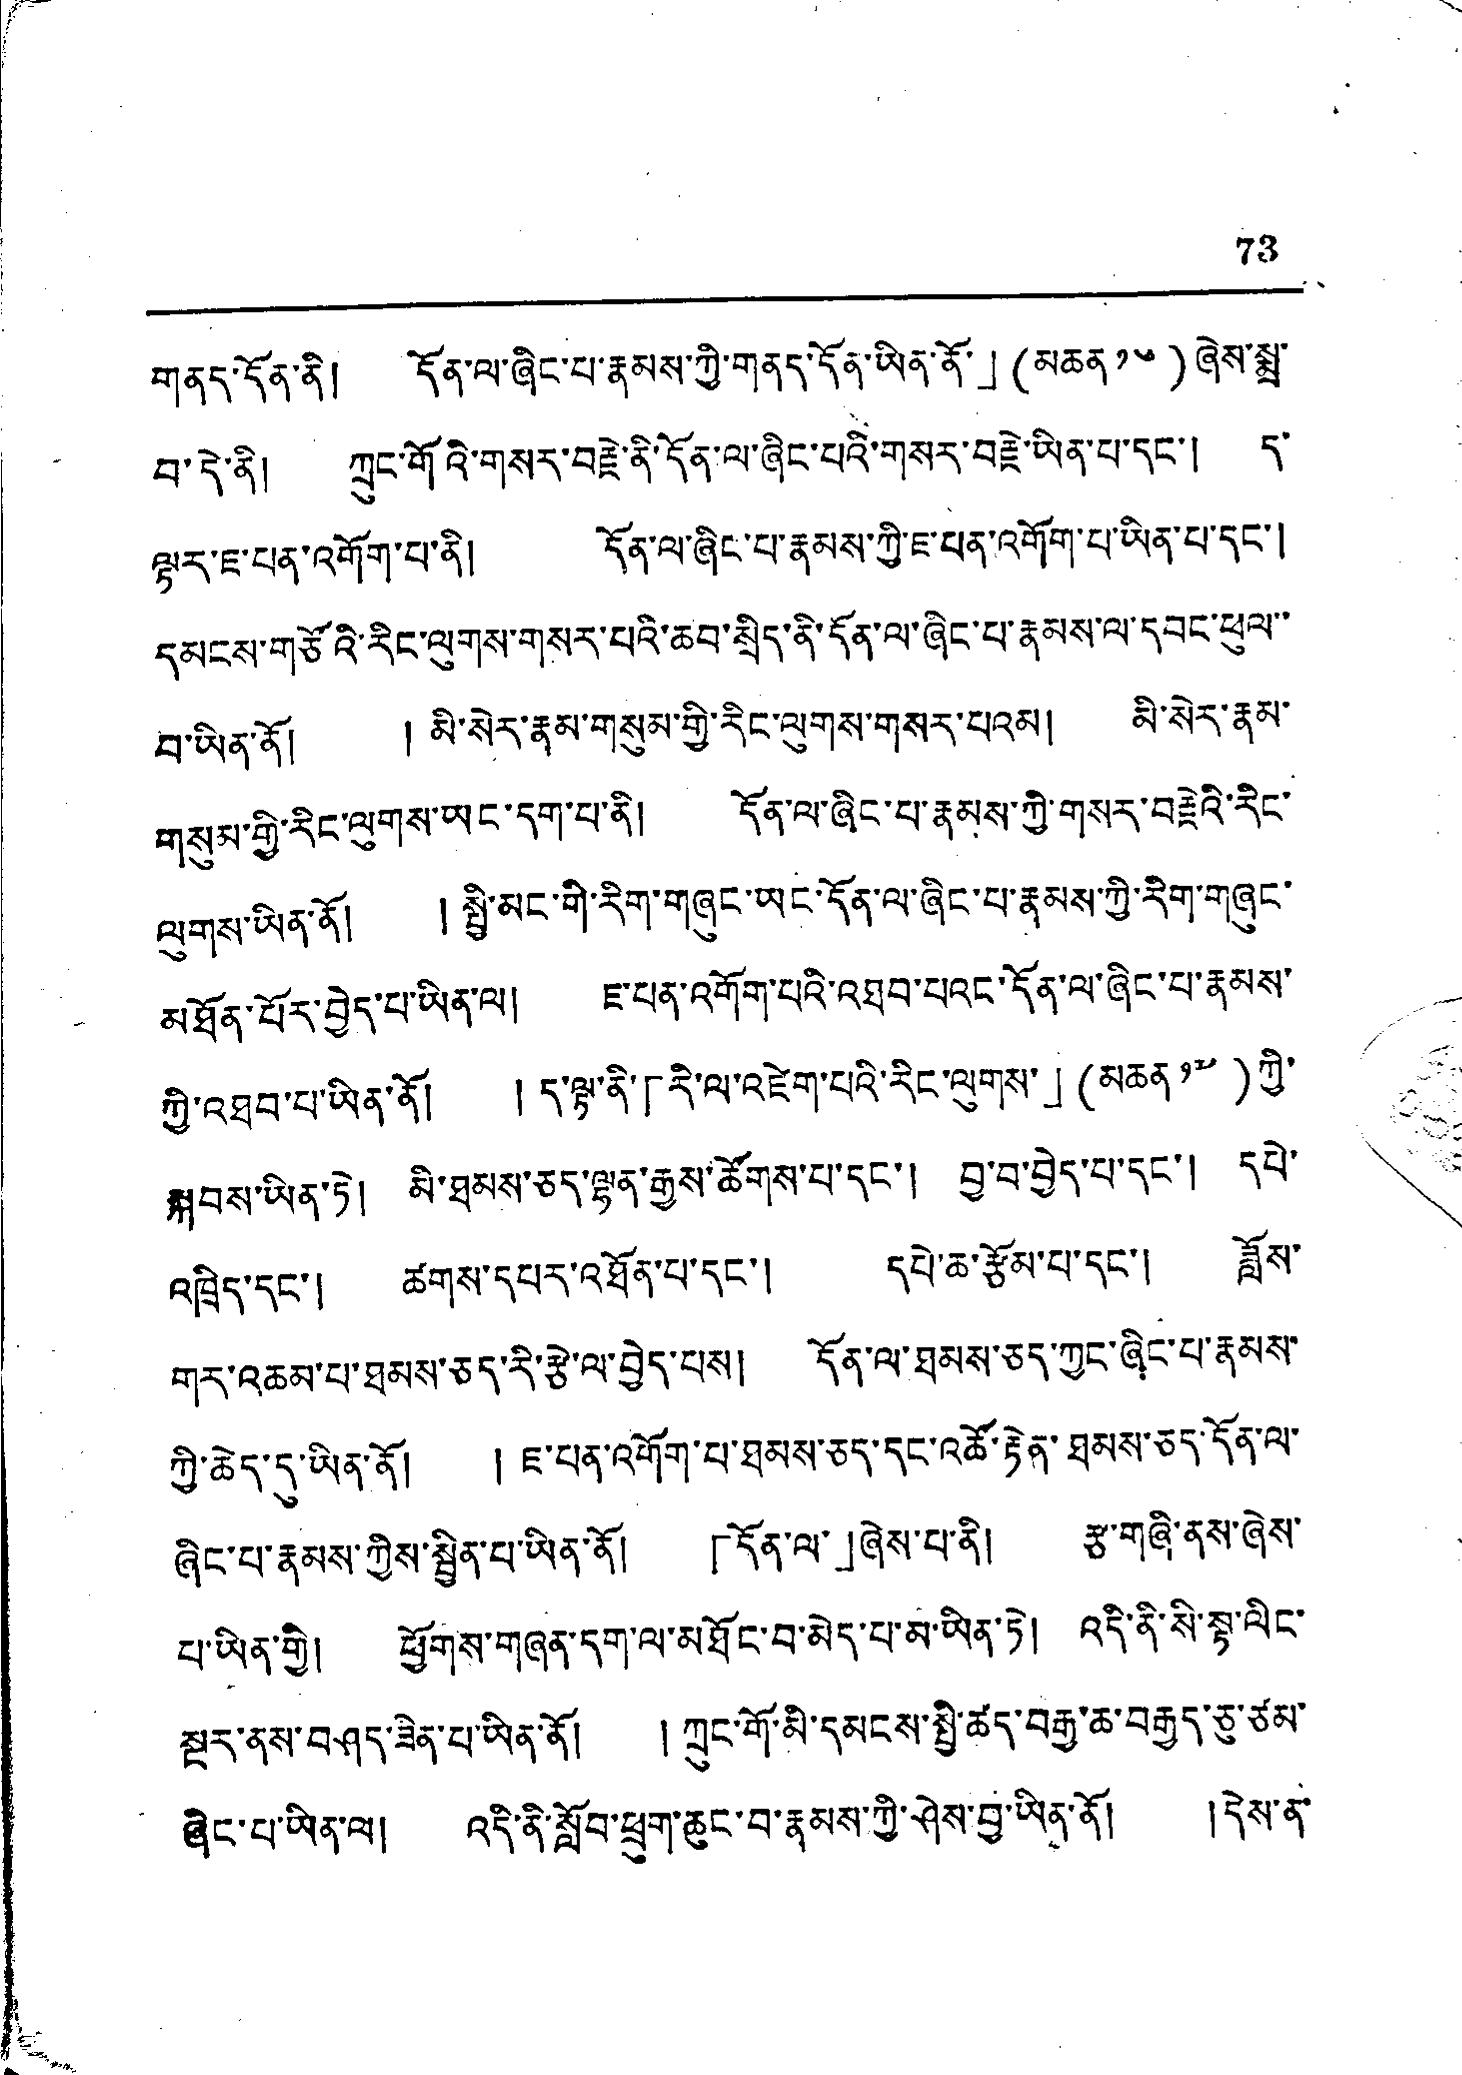73
གནད་དོན་ནི། དོན་ལ་ཞིང་པ་རྣམས་ཀྱི་གནད་དོན་ཡིན་ནོ་」(མཆན ༡༦)ཞེས་སྨྲ་
བ་དེ་ནི། ཀྲུང་གོའི་གསར་བརྗེ་ནི་དོན་ལ་ཞིང་པའི་གསར་བརྗེ་ཡིན་པ་དང་། ད་
ལྟར་ཇ་པན་འགོག་པ་ནི། དོན་ལ་ཞིང་པ་རྣམས་ཀྱི་ཇ་པན་འགོག་པ་ཡིན་པ་དང་།
དམངས་གཙོའི་རིང་ལུགས་གསར་པའི་ཆབ་སྲིད་ནི་དོན་ལ་ཞིང་པ་རྣམས་ལ་དབང་ཕུལ་་
བ་ཡིན་ནོ། །མི་སེར་རྣམ་གསུམ་གྱི་རིང་ལུགས་གསར་པའམ། མི་སེར་རྣམ་
གསུམ་གྱི་རིང་ལུགས་ཡང་དག་པ་ནི། དོན་ལ་ཞིང་པ་རྣམས་ཀྱི་གསར་བརྗེའི་རིང་
ལུགས་ཡིན་ནོ། །སྤྱི་མང་གི་རིག་གཞུང་ཡང་དོན་ལ་ཞིང་པ་རྣམས་ཀྱི་རིག་གཞུང་
མཐོན་པོར་བྱེད་པ་ཡིན་ལ། ཇ་པན་འགོག་པའི་འཐབ་པའང་དོན་ལ་ཞིང་པ་རྣམས་
ཀྱི་འཐབ་པ་ཡིན་ནོ། ། ད་ལྟ་ནི་「རི་ལ་འཇོག་པའི་རིང་ལུགས་」(མཆན ༡༧ )ཀྱི་
སྐབས་ཡིན་ཏེ། མི་ཐམས་ཅད་ལྷན་རྒྱས་ཚོགས་པ་དང་། བྱ་བ་བྱེད་པ་དང་། དཔེ་
འཁྲིད་དང་། ཚགས་དཔར་འཐོན་པ་དང་། དཔེ་ཆ་རྩོམ་པ་དང་། ཟློས་
གར་འཆམ་པ་ཐམས་ཅད་རི་རྩེ་ལ་བྱེད་པས། དོན་ལ་ཐམས་ཅད་ཀྱང་ཞིང་པ་རྣམས་
ཀྱི་ཆེད་དུ་ཡིན་ནོ། །ཇ་པན་འགོག་པ་ཐམས་ཅད་དང་འཚོ་རྟེན་ཐམས་ཅད་དོན་ལ་
ཞིང་པ་རྣམས་ཀྱིས་སྦྱིན་པ་ཡིན་ནོ། 「དོན་ལ་」ཞེས་པ་ནི། རྩ་གཞི་ནས་ཞེས་
པ་ཡིན་གྱི། ཕྱོགས་གཞན་དག་ལ་མཐོང་བ་མེད་པ་མ་ཡིན་ཏེ། འདི་ནི་སི་སྟ་ལིང་
སྔར་ནས་བཤད་ཟེན་པ་ཡིན་ནོ། །ཀྲུང་གོ་མི་དམངས་སྤྱི་ཚད་བརྒྱ་ཆ་བརྒྱད་ཅུ་ཙམ་
ཞིང་པ་ཡིན་ལ། འདི་ནི་སློབ་ཕྲུག་ཆུང་བ་རྣམས་ཀྱི་ཤེས་བྱ་ཡིན་ནོ། །དེས་ན་
